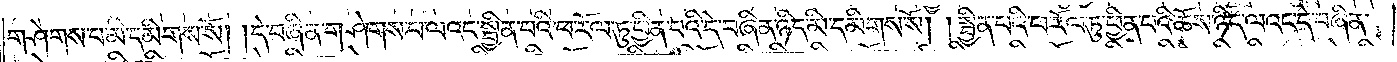གཤེགས་པ་མི་དམིགས་སོ། །དེ་བཞིན་གཤེགས་པ་ལའང་སྦྱིན་པའི་ཕ་རོལ་ཏུ་ཕྱིན་པའི་དེ་བཞིན་ཉིད་མི་དམིགས་སོ། །སྦྱིན་པའི་ཕ་རོལ་ཏུ་ཕྱིན་པའི་ཆོས་ཉིད་ལའང་དེ་བཞིན་
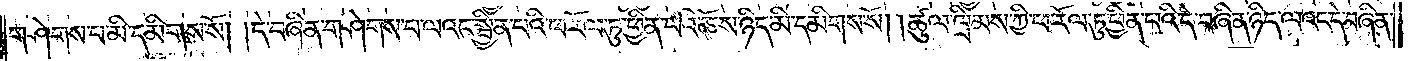གཤེགས་པ་མི་དམིགས་སོ། །དེ་བཞིན་གཤེགས་པ་ལའང་སྦྱིན་པའི་ཕ་རོལ་ཏུ་ཕྱིན་པའི་ཆོས་ཉིད་མི་དམིགས་སོ། །ཚུལ་ཁྲིམས་ཀྱི་ཕ་རོལ་ཏུ་ཕྱིན་པའི་དེ་བཞིན་ཉིད་ལའང་དེ་བཞིན་
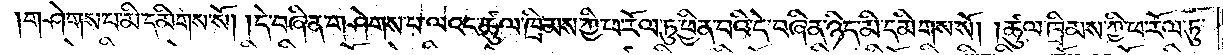གཤེགས་པ་མི་དམིགས་སོ། །དེ་བཞིན་གཤེགས་པ་ལའང་ཚུལ་ཁྲིམས་ཀྱི་ཕ་རོལ་ཏུ་ཕྱིན་པའི་དེ་བཞིན་ཉིད་མི་དམིགས་སོ། །ཚུལ་ཁྲིམས་ཀྱི་ཕ་རོལ་ཏུ་
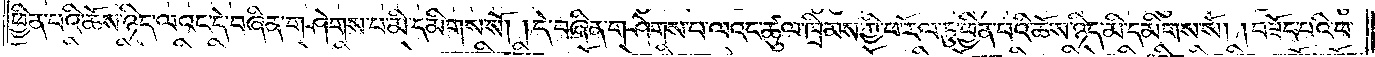ཕྱིན་པའི་ཆོས་ཉིད་ལའང་དེ་བཞིན་གཤེགས་པ་མི་དམིགས་སོ། །དེ་བཞིན་གཤེགས་པ་ལའང་ཚུལ་ཁྲིམས་ཀྱི་ཕ་རོལ་ཏུ་ཕྱིན་པའི་ཆོས་ཉིད་མི་དམིགས་སོ། །བཟོད་པའི་ཕ་
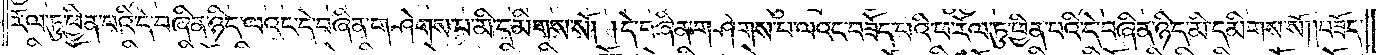རོལ་ཏུ་ཕྱིན་པའི་དེ་བཞིན་ཉིད་ལའང་དེ་བཞིན་གཤེགས་པ་མི་དམིགས་སོ། །དེ་བཞིན་གཤེགས་པ་ལའང་བཟོད་པའི་ཕ་རོལ་ཏུ་ཕྱིན་པའི་དེ་བཞིན་ཉིད་མི་དམིགས་སོ། །བཟོད་
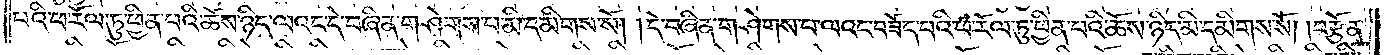པའི་ཕ་རོལ་ཏུ་ཕྱིན་པའི་ཆོས་ཉིད་ལའང་དེ་བཞིན་གཤེགས་པ་མི་དམིགས་སོ། །དེ་བཞིན་གཤེགས་པ་ལའང་བཟོད་པའི་ཕ་རོལ་ཏུ་ཕྱིན་པའི་ཆོས་ཉིད་མི་དམིགས་སོ། །བརྩོན་
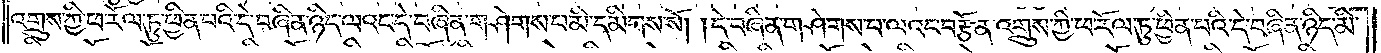འགྲུས་ཀྱི་ཕ་རོལ་ཏུ་ཕྱིན་པའི་དེ་བཞིན་ཉིད་ལའང་དེ་བཞིན་གཤེགས་པ་མི་དམིགས་སོ། །དེ་བཞིན་གཤེགས་པ་ལའང་བརྩོན་འགྲུས་ཀྱི་ཕ་རོལ་ཏུ་ཕྱིན་པའི་དེ་བཞིན་ཉིད་མི་
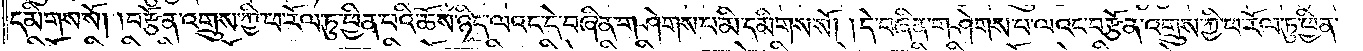དམིགས་སོ། །བརྩོན་འགྲུས་ཀྱི་ཕ་རོལ་ཏུ་ཕྱིན་པའི་ཆོས་ཉིད་ལའང་དེ་བཞིན་གཤེགས་པ་མི་དམིགས་སོ། །དེ་བཞིན་གཤེགས་པ་ལའང་བརྩོན་འགྲུས་ཀྱི་ཕ་རོལ་ཏུ་ཕྱིན་
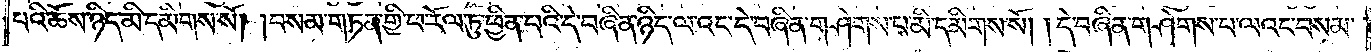པའི་ཆོས་ཉིད་མི་དམིགས་སོ། །བསམ་གཏན་གྱི་ཕ་རོལ་ཏུ་ཕྱིན་པའི་དེ་བཞིན་ཉིད་ལའང་དེ་བཞིན་གཤེགས་པ་མི་དམིགས་སོ། །དེ་བཞིན་གཤེགས་པ་ལའང་བསམ་
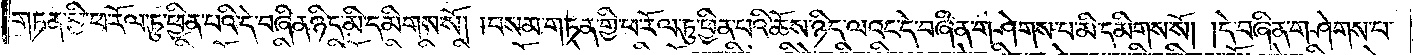གཏན་གྱི་ཕ་རོལ་ཏུ་ཕྱིན་པའི་དེ་བཞིན་ཉིད་མི་དམིགས་སོ། །བསམ་གཏན་གྱི་ཕ་རོལ་ཏུ་ཕྱིན་པའི་ཆོས་ཉིད་ལའང་དེ་བཞིན་གཤེགས་པ་མི་དམིགས་སོ། །དེ་བཞིན་གཤེགས་པ་
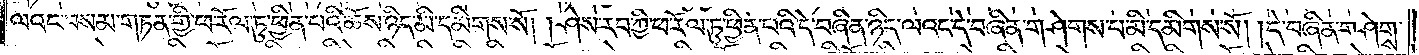ལའང་བསམ་གཏན་གྱི་ཕ་རོལ་ཏུ་ཕྱིན་པའི་ཆོས་ཉིད་མི་དམིགས་སོ། །ཤེས་རབ་ཀྱི་ཕ་རོལ་ཏུ་ཕྱིན་པའི་དེ་བཞིན་ཉིད་ལའང་དེ་བཞིན་གཤེགས་པ་མི་དམིགས་སོ། །དེ་བཞིན་གཤེགས་
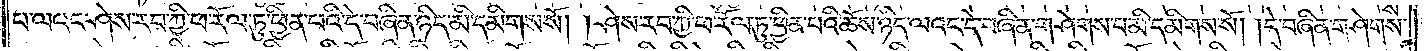པ་ལའང་ཤེས་རབ་ཀྱི་ཕ་རོལ་ཏུ་ཕྱིན་པའི་དེ་བཞིན་ཉིད་མི་དམིགས་སོ། །ཤེས་རབ་ཀྱི་ཕ་རོལ་ཏུ་ཕྱིན་པའི་ཆོས་ཉིད་ལའང་དེ་བཞིན་གཤེགས་པ་མི་དམིགས་སོ། །དེ་བཞིན་གཤེགས་
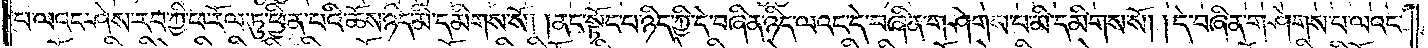པ་ལའང་ཤེས་རབ་ཀྱི་ཕ་རོལ་ཏུ་ཕྱིན་པའི་ཆོས་ཉིད་མི་དམིགས་སོ། །ནང་སྟོང་པ་ཉིད་ཀྱི་དེ་བཞིན་ཉིད་ལའང་དེ་བཞིན་གཤེགས་པ་མི་དམིགས་སོ། །དེ་བཞིན་གཤེགས་པ་ལའང་
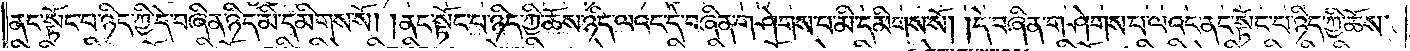ནང་སྟོང་པ་ཉིད་ཀྱི་དེ་བཞིན་ཉིད་མི་དམིགས་སོ། །ནང་སྟོང་པ་ཉིད་ཀྱི་ཆོས་ཉིད་ལའང་དེ་བཞིན་གཤེགས་པ་མི་དམིགས་སོ། །དེ་བཞིན་གཤེགས་པ་ལའང་ནང་སྟོང་པ་ཉིད་ཀྱི་ཆོས་
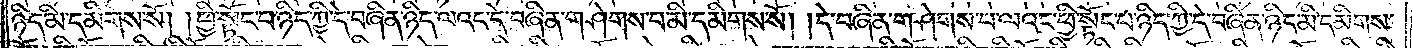ཉིད་མི་དམིགས་སོ། །ཕྱི་སྟོང་པ་ཉིད་ཀྱི་དེ་བཞིན་ཉིད་ལའང་དེ་བཞིན་གཤེགས་པ་མི་དམིགས་སོ། །དེ་བཞིན་གཤེགས་པ་ལའང་ཕྱི་སྟོང་པ་ཉིད་ཀྱི་དེ་བཞིན་ཉིད་མི་དམིགས་
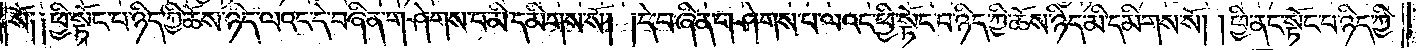སོ༑ ༑ཕྱི་སྟོང་པ་ཉིད་ཀྱི་ཆོས་ཉིད་ལའང་དེ་བཞིན་གཤེགས་པ་མི་དམིགས་སོ། །དེ་བཞིན་གཤེགས་པ་ལའང་ཕྱི་སྟོང་པ་ཉིད་ཀྱི་ཆོས་ཉིད་མི་དམིགས་སོ། །ཕྱི་ནང་སྟོང་པ་ཉིད་ཀྱི་
